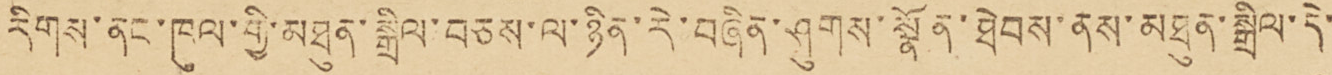རིགས་ནང་ཁུལ་གྱི་མཐུན་སྒྲིལ་བཅས་ལ་ཉིན་རེ་བཞིན་ཤུགས་སྣོན་ཐེབས་ནས་མཐུན་སྒྲིལ་དེ་་་་
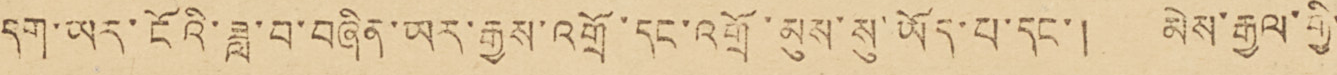དག་ཡར་ངོའི་ཟླ་བ་བཞིན་ཡར་རྒྱས་འགྲོ་དང་འགྲོ་མུས་སུ་ཡོད་པ་དང་། མེས་རྒྱལ་གྱི་་་
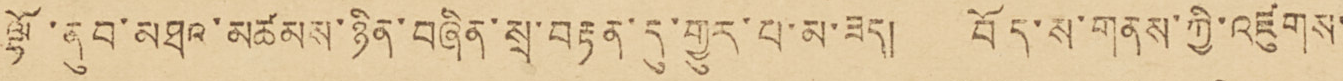ལྷོ་ནུབ་མཐའ་མཚམས་ཉིན་བཞིན་སྲ་བརྟན་དུ་གྱུར་པ་མ་ཟད། བོད་ས་གནས་ཀྱི་འཛུགས་་་
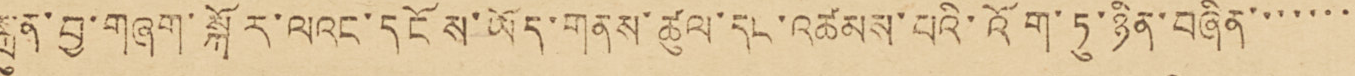སྐྲུན་བྱ་གཞག་སྐོར་ལའང་དངོས་ཡོད་གནས་ཚུལ་དང་འཚམས་ཕའི་འོག་ཏུ་ཉིན་བཞིན་་་་་་་་
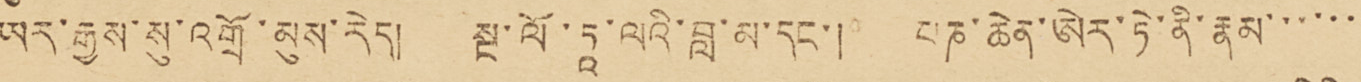ཡར་རྒྱས་སུ་འགྲོ་མུས་རེད། སྔ་ལོ་ཏཱ་ལའི་བླ་མ་དང་། པཎ་ཆེན་ཨེར་ཏེ་ནི་རྣམ་་་་་་་
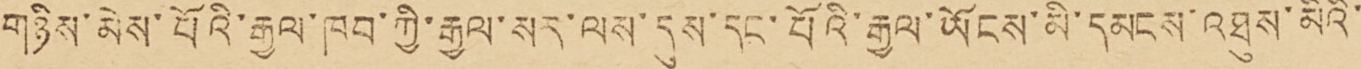གཉིས་མེས་པོའི་རྒྱལ་ཁབ་ཀྱི་རྒྱལ་སར་ལས་དུས་དང་པོའི་རྒྱལ་ཡོངས་མི་དམངས་འཐུས་མིའི་་
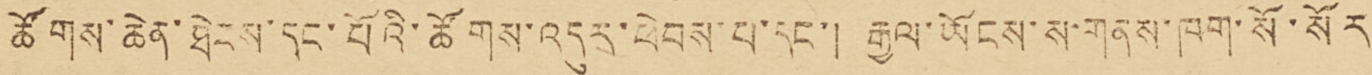ཚོགས་ཆེན་ཐེངས་དང་པོའི་ཚོགས་འདུར་ཕེབས་པ་དང་། རྒྱལ་ཡོངས་ས་གནས་ཁག་སོ་སོར་
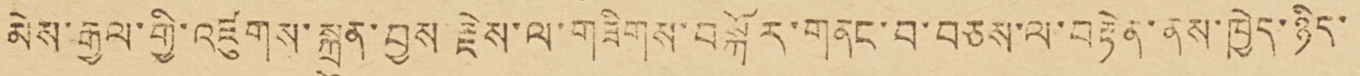མེས་རྒྱལ་གྱི་འཛུགས་སྐྲུན་བྱས རྗེས་ལ་གཟིགས་བསྐོར་གནང་བ་བཅས་ལ་བརྟེན་ནས་ཁྱེད་ཉིད་་་
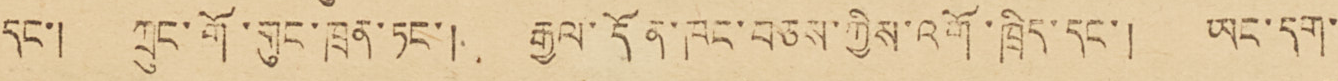དང་། ཀྲུང་གོ་གུང་ཁྲན་ཏང་། རྒྱལ་དོན་ཁང་བཅས་ཀྱིས་འགོ་ཁྲིད་དང་། ཡང་དག་་
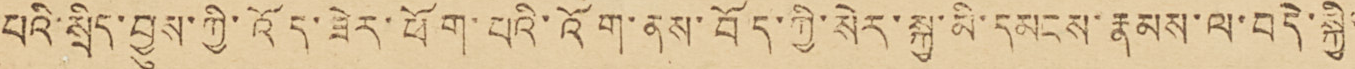པའི་སྲིད་བྱུས་ཀྱི་འོད་ཟེར་ཕོག་པའི་འོག་ནས་བོད་ཀྱི་སེར་སྐྱ་མི་དམངས་རྣམས་ལ་བདེ་སྐྱིད་
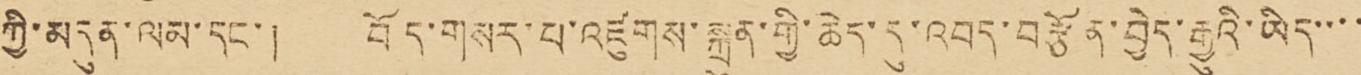ཀྱི་མདུན་ལམ་དང་། བོད་གསར་པ་འཛུགས་སྐྲུན་གྱི་ཆེད་དུ་འབད་བརྩོན་བྱེད་རྒྱུའི་ཡིད་་་་་
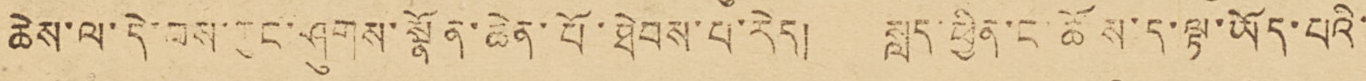ཆེས་ལ་དེ་བས་ཀྱང་ཤུགས་སྣོན་ཆེན་པོ་ཐེབས་པ་རེད། སླད་ཕྱིན་ང་ཚོས་ད་ལྟ་ཡོད་པའི་་
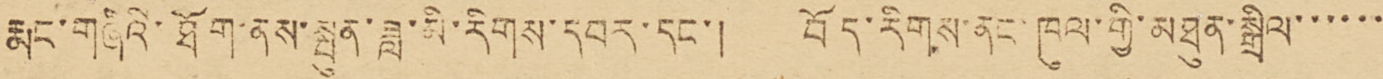རྨང་གཞིའི་ཐོག་ནས་སྤུན་ཟླ་མི་རིགས་དབར་དང་། བོད་རིགས་ནང་ཁུལ་གྱི་མཐུན་སྒྲིལ་་་་་་
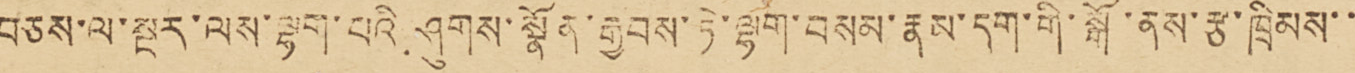བཅས་ལ་སྔར་ལས་ལྷག་པའི ཤུགས་སྣོན་རྒྱབས་ཏེ་ལྷག་བསམ་རྣམ་དག་གི་སྒོ་ནས་རྩ་ཁྲིམས་་་
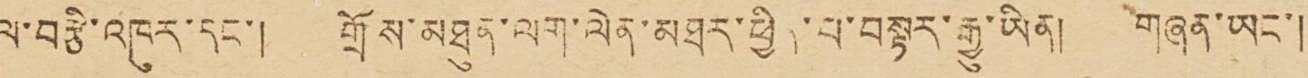ལ་བརྩི་འཁུར་དང་། གྲོས་མཐུན་ལག་ལེན་མཐར་ཕྱིན་པ་བསྟར་རྒྱུ་ཡིན། གཞན་ཡང་།
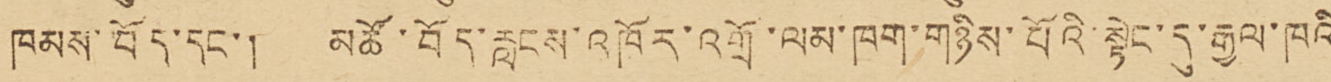ཁམས་བོད་དང་། མཚོ་བོད་རླངས་འཁོར་འགྲོ་ལམ་ཁག་གཉིས་པོའི་སྟེང་དུ་རྒྱལ་ཁའི་
